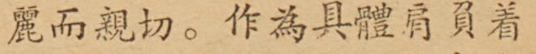麗而親切。作爲具體肩負着
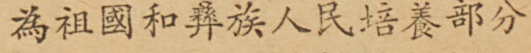爲祖國和彝族人民培養部分
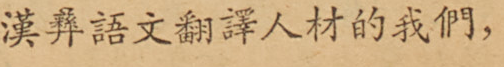漢彝語文翻譯人材的我們，
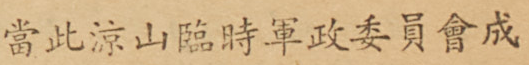當此涼山臨時軍政委員會成
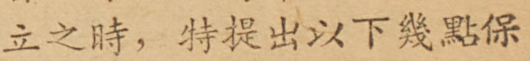立之時，特提出以下幾點保
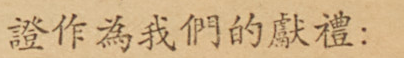證作爲我們的獻禮：
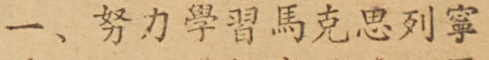一、努力學習馬克思列寧
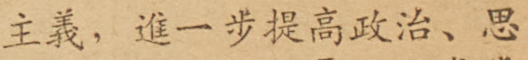主義，進一步提高政治、思
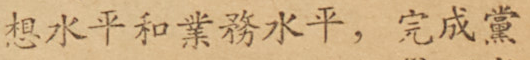想水平和業務水平，完成黨
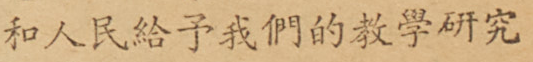和人民給予我們的教學研究
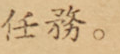任務。
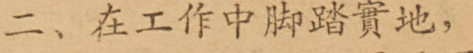二、在工作中腳踏實地，
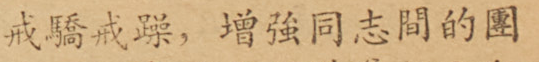戒驕戒躁，增強同志間的團
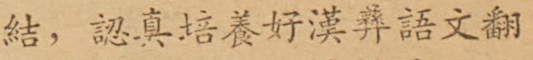結，認真培養好漢彝語文翻
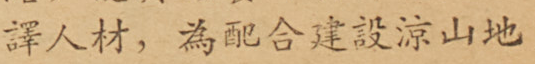譯人材，為配合建設涼山地
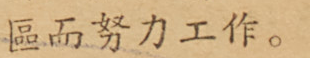區而努力工作。
